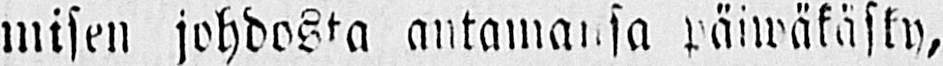misen johdospa antamansa päiwäkäsky,
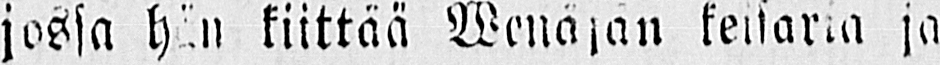jossa hän kiittää Wenäjän keisaria ja
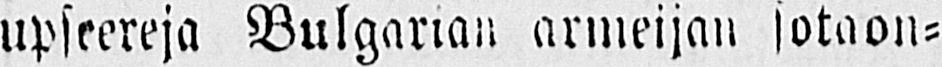upseereja Bulgarian armeijan sotaon-
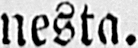nesta.
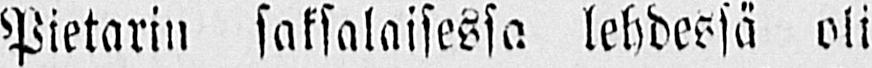Pietarin saksalaisessa lehdessä oli
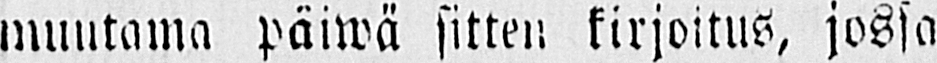muutama päiwä sitten kirjoitus, jossa
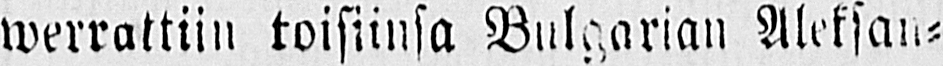werrattiin toisiinsa Bulgarian Aleksan-
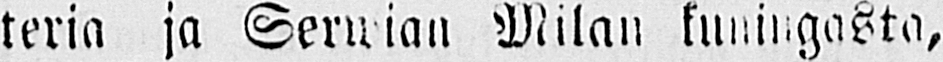teria ja Serwian Milan kuningasta,
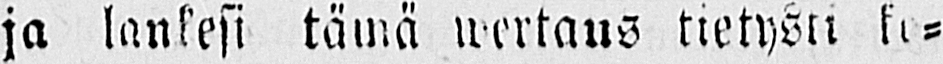ja lankesi tämä wertaus tietysti ko-
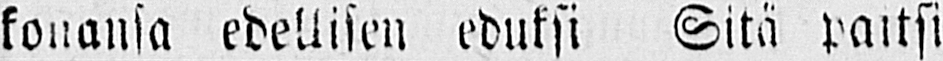konansa edellisen eduksi Sitä paitsi
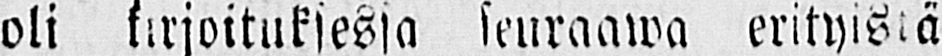oli kirjoituksessa seuraawa erityistä
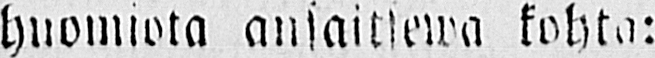huomiota ansaitsewa kohta:
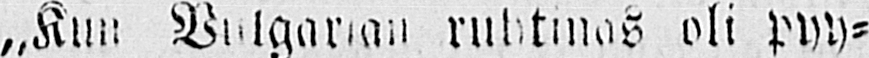„Kun. Vulgarian ruhtinas oli pyy-
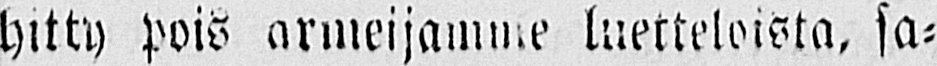hitty pois armeijamme luetteloista, sa-
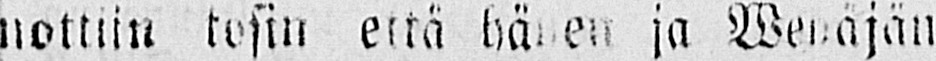nottiin tosin että hänen ja Wenäjän
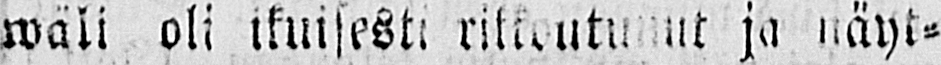wäli oli ikuisesti rikkoutunut ja näyt-
